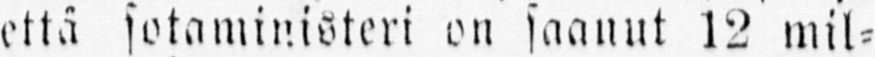että sotaministeri on saanut 12 mil-
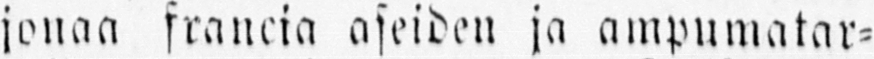jonaa francia aseiden ja ampumatar-
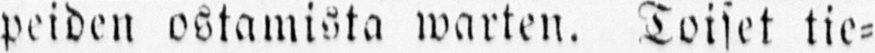peiden ostamista warten. Toiset tie-
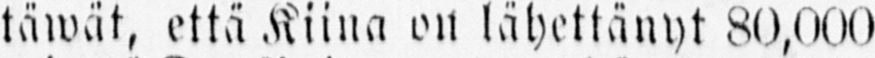täwät, että Kiina on lähettänyt 80,000
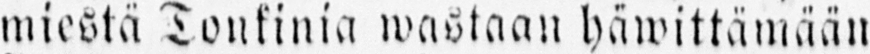miestä Tonkinia wastaan häwittämään
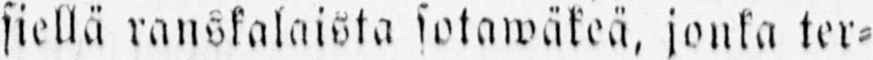siellä ranskalaista sotawäkeä, jonka ter-
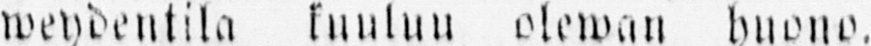weydentila kuuluu olewan huono.
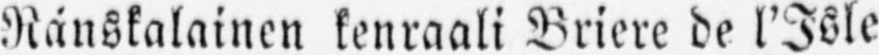Ránskalainen kenraali Briere de l'Isle
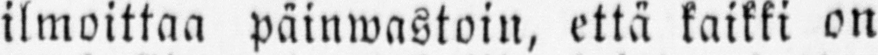ilmoittaa päinwastoin, että kaikki on
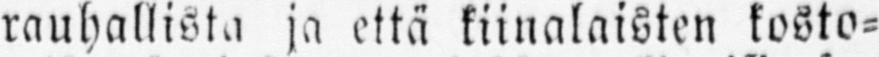rauhallista ja että kiinalaisten kosto-
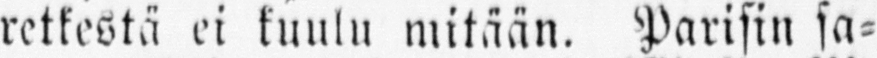retkestä ei kuulu mitään. Parisin sa-
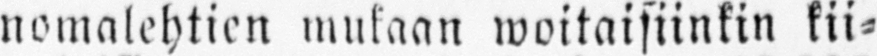nomalehtien mukaan woitaisiinkin kii-
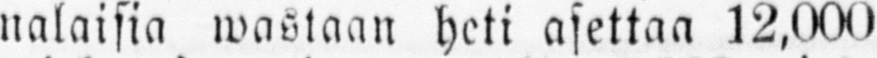nalaisia wastaan heti asettaa 12,000
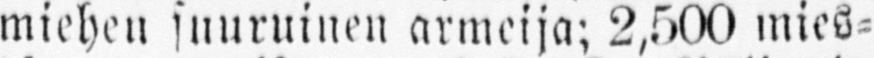miehen suuruinen armeija; 2,500 mies-
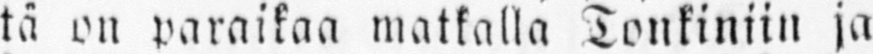tä on paraikaa matkalla Tonkiniin ja
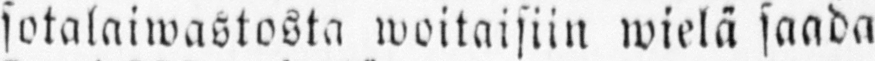sotalaiwastosta woitaisiin wielä saada
